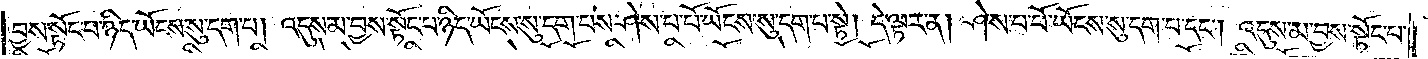བྱས་སྟོང་པ་ཉིད་ཡོངས་སུ་དག་པ། འདུས་མ་བྱས་སྟོང་པ་ཉིད་ཡོངས་སུ་དག་པས་ཤེས་པ་པོ་ཡོངས་སུ་དག་པ་སྟེ། དེ་ལྟར་ན། ཤེས་པ་པོ་ཡོངས་སུ་དག་པ་དང༌། འདུས་མ་བྱས་སྟོང་པ་
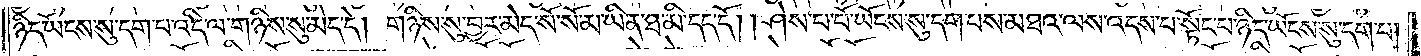ཉིད་ཡོངས་སུ་དག་པ་འདི་ལ་གཉིས་སུ་མེད་དེ། གཉིས་སུ་བྱར་མེད་སོ་སོ་མ་ཡིན་ཐ་མི་དད་དོ། །ཤེས་པ་པོ་ཡོངས་སུ་དག་པས་མཐའ་ལས་འདས་པ་སྟོང་པ་ཉིད་ཡོངས་སུ་དག་པ།
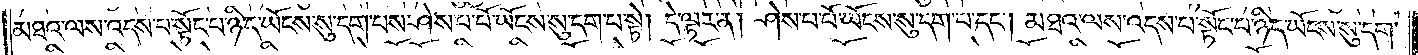མཐའ་ལས་འདས་པ་སྟོང་པ་ཉིད་ཡོངས་སུ་དག་པས་ཤེས་པ་པོ་ཡོངས་སུ་དག་པ་སྟེ། དེ་ལྟར་ན། ཤེས་པ་པོ་ཡོངས་སུ་དག་པ་དང༌། མཐའ་ལས་འདས་པ་སྟོང་པ་ཉིད་ཡོངས་སུ་དག་
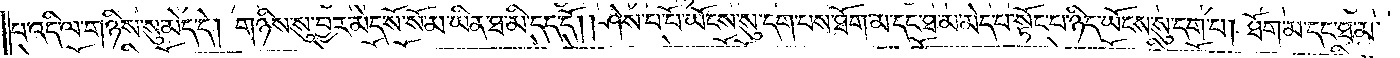པ་འདི་ལ་གཉིས་སུ་མེད་དེ། གཉིས་སུ་བྱར་མེད་སོ་སོ་མ་ཡིན་ཐ་མི་དད་དོ། །ཤེས་པ་པོ་ཡོངས་སུ་དག་པས་ཐོག་མ་དང་ཐ་མ་མེད་པ་སྟོང་པ་ཉིད་ཡོངས་སུ་དག་པ། ཐོག་མ་དང་ཐ་མ་
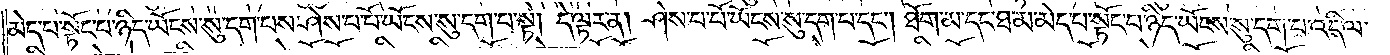མེད་པ་སྟོང་པ་ཉིད་ཡོངས་སུ་དག་པས་ཤེས་པ་པོ་ཡོངས་སུ་དག་པ་སྟེ། དེ་ལྟར་ན། ཤེས་པ་པོ་ཡོངས་སུ་དག་པ་དང༌། ཐོག་མ་དང་ཐ་མ་མེད་པ་སྟོང་པ་ཉིད་ཡོངས་སུ་དག་པ་འདི་ལ་
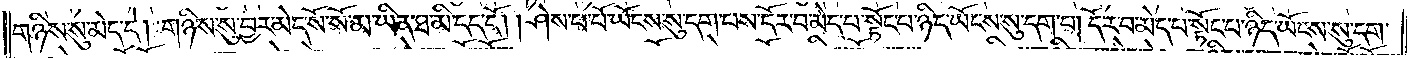གཉིས་སུ་མེད་དེ། གཉིས་སུ་བྱར་མེད་སོ་སོ་མ་ཡིན་ཐ་མི་དད་དོ། །ཤེས་པ་པོ་ཡོངས་སུ་དག་པས་དོར་བ་མེད་པ་སྟོང་པ་ཉིད་ཡོངས་སུ་དག་པ། དོར་བ་མེད་པ་སྟོང་པ་ཉིད་ཡོངས་སུ་དག་
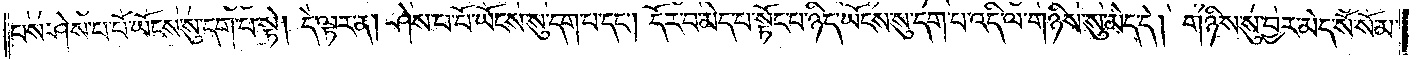པས་ཤེས་པ་པོ་ཡོངས་སུ་དག་པ་སྟེ། དེ་ལྟར་ན། ཤེས་པ་པོ་ཡོངས་སུ་དག་པ་དང༌། དོར་བ་མེད་པ་སྟོང་པ་ཉིད་ཡོངས་སུ་དག་པ་འདི་ལ་གཉིས་སུ་མེད་དེ། གཉིས་སུ་བྱར་མེད་སོ་སོ་མ་
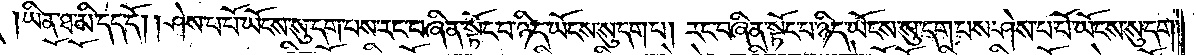ཡིན་ཐ་མི་དད་དོ། །ཤེས་པ་པོ་ཡོངས་སུ་དག་པས་རང་བཞིན་སྟོང་པ་ཉིད་ཡོངས་སུ་དག་པ། རང་བཞིན་སྟོང་པ་ཉིད་ཡོངས་སུ་དག་པས་ཤེས་པ་པོ་ཡོངས་སུ་དག་
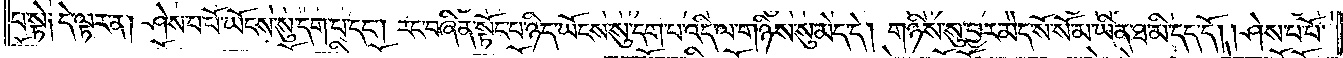པ་སྟེ༑ དེ་ལྟར་ན། ཤེས་པ་པོ་ཡོངས་སུ་དག་པ་དང༌། རང་བཞིན་སྟོང་པ་ཉིད་ཡོངས་སུ་དག་པ་འདི་ལ་གཉིས་སུ་མེད་དེ། གཉིས་སུ་བྱར་མེད་སོ་སོ་མ་ཡིན་ཐ་མི་དད་དོ། །ཤེས་པ་པོ་
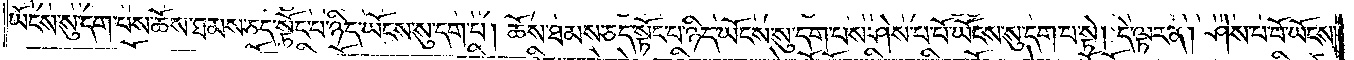ཡོངས་སུ་དག་པས་ཆོས་ཐམས་ཅད་སྟོང་པ་ཉིད་ཡོངས་སུ་དག་པ། ཆོས་ཐམས་ཅད་སྟོང་པ་ཉིད་ཡོངས་སུ་དག་པས་ཤེས་པ་པོ་ཡོངས་སུ་དག་པ་སྟེ། དེ་ལྟར་ན། ཤེས་པ་པོ་ཡོངས་
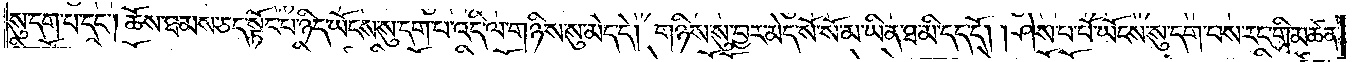སུ་དག་པ་དང༌། ཆོས་ཐམས་ཅད་སྟོང་པ་ཉིད་ཡོངས་སུ་དག་པ་འདི་ལ་གཉིས་སུ་མེད་དེ། གཉིས་སུ་བྱར་མེད་སོ་སོ་མ་ཡིན་ཐ་མི་དད་དོ། །ཤེས་པ་པོ་ཡོངས་སུ་དག་པས་རང་གི་མཚན་
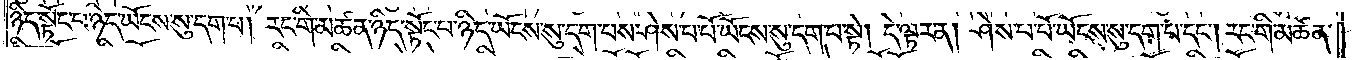ཉིད་སྟོང་པ་ཉིད་ཡོངས་སུ་དག་པ། རང་གི་མཚན་ཉིད་སྟོང་པ་ཉིད་ཡོངས་སུ་དག་པས་ཤེས་པ་པོ་ཡོངས་སུ་དག་པ་སྟེ། དེ་ལྟར་ན། ཤེས་པ་པོ་ཡོངས་སུ་དག་པ་དང༌། རང་གི་མཚན་
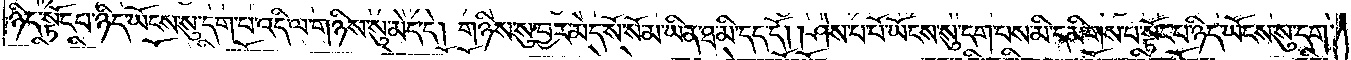ཉིད་སྟོང་པ་ཉིད་ཡོངས་སུ་དག་པ་འདི་ལ་གཉིས་སུ་མེད་དེ། གཉིས་སུ་བྱར་མེད་སོ་སོ་མ་ཡིན་ཐ་མི་དད་དོ། །ཤེས་པ་པོ་ཡོངས་སུ་དག་པས་མི་དམིགས་པ་སྟོང་པ་ཉིད་ཡོངས་སུ་དག་
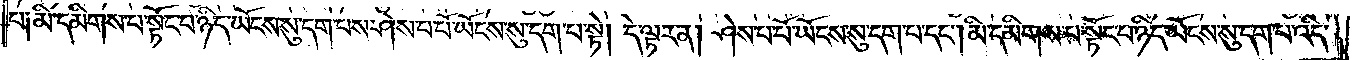པ༑ མི་དམིགས་པ་སྟོང་པ་ཉིད་ཡོངས་སུ་དག་པས་ཤེས་པ་པོ་ཡོངས་སུ་དག་པ་སྟེ། དེ་ལྟར་ན། ཤེས་པ་པོ་ཡོངས་སུ་དག་པ་དང༌། མི་དམིགས་པ་སྟོང་པ་ཉིད་ཡོངས་སུ་དག་པ་འདི་
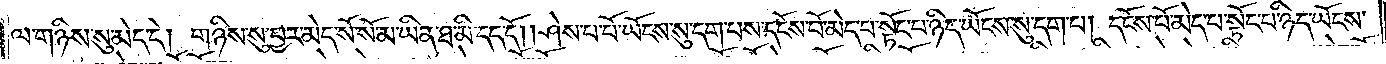ལ་གཉིས་སུ་མེད་དེ། གཉིས་སུ་བྱར་མེད་སོ་སོ་མ་ཡིན་ཐ་མི་དད་དོ། །ཤེས་པ་པོ་ཡོངས་སུ་དག་པས་དངོས་པོ་མེད་པ་སྟོང་པ་ཉིད་ཡོངས་སུ་དག་པ། དངོས་པོ་མེད་པ་སྟོང་པ་ཉིད་ཡོངས་
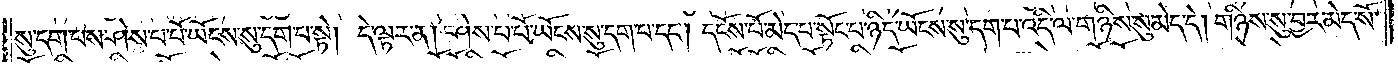སུ་དག་པས་ཤེས་པ་པོ་ཡོངས་སུ་དག་པ་སྟེ། དེ་ལྟར་ན། ཤེས་པ་པོ་ཡོངས་སུ་དག་པ་དང༌། དངོས་པོ་མེད་པ་སྟོང་པ་ཉིད་ཡོངས་སུ་དག་པ་འདི་ལ་གཉིས་སུ་མེད་དེ། གཉིས་སུ་བྱར་མེད་སོ་
